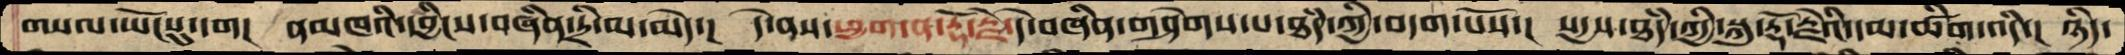གསལ་ཡོངསུ་དག།  ནམཁའི་དབྱིངས་བཞིན་དྲི་མ་མེད་།  དེ་ནས་ཕྱག་ན་རྡོ་རྗེ་དེ་བཞིན་གཤེགས་པ་ཐཾད་ཀྱི་བདག་པོས་།  སདྱས་ཐཾད་ཀྱི་སྐུ་རྡོ་རྗེའི་དམ་ཚིག་འདི་།  ཉིད་
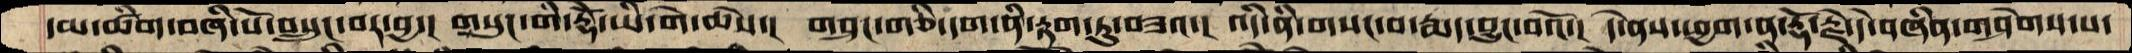དམ་ཚིག་བཞི་པོ་བསྲུང་བར་བྱ་།  གསུང་གི་རྡོེ་ཡི་གེ་ཆེས་།  གཤང་གཅི་དག་ནི་རྟག་ཏུ་བཟའ་།  འདི་ནི་གསང་བ་རྨད་བྱུང་བའོ་།  དེ་ནས་ཕྱག་ན་རྡོ་རྗེ་དེ་བཞིན་གཤེགས་པ་
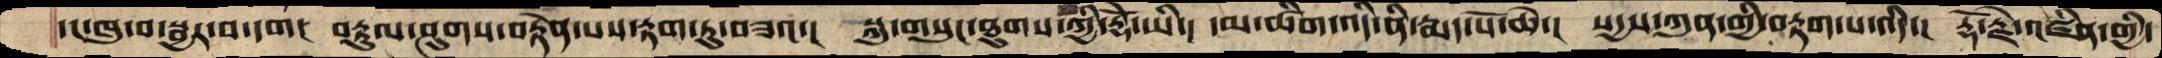དང་ཁུ་བ་སྦྱར་བ་དག།  བརྟུལ་ཤུགས་བརྟེན་པས་རྟག་ཏུ་བཟའ་།  སྐུ་གསུང་ཐུགས་ཀྱི་རྡོེ་ཡི་།  དམ་ཚིག་འདི་ནི་རྨད་པོ་ཆེ་།  སདྱས་ཀུན་གྱི་བརྟག་པ་འདི་།  རྡོ་རྗེ་འཛིན་གྱི་
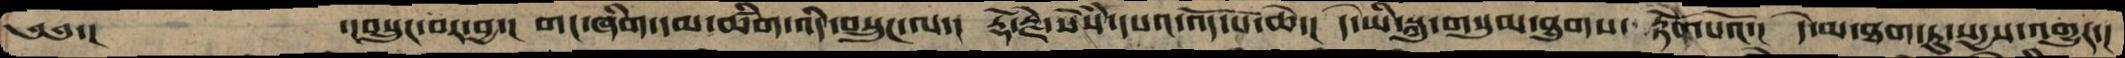༄༅་།     ་།བསྲུང་བར་བྱ་།  གང་ཞིག་དམ་ཚིག་འདི་བསྲུང་ལ་།  རྡོ་རྗེ་སེཾས་དཔའ་འོད་པོ་ཆེ་།  དེ་ཡི་སྐུ་གསུང་ཐུགས་   རྟེན་པའོ་།  དེ་མ་ཐག་ཏུ་སདྱས་འགྱུར་།
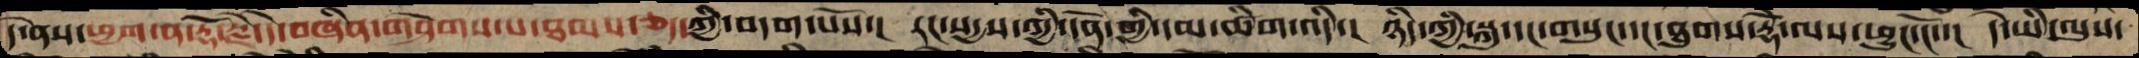དེ་ནས་ཕྱག་ན་རྡོ་རྗེ་དེ་བཞིན་གཤེགས་པ་ཐམས་ཅད་ཀྱི་བདག་པོས་།  རང་སདྱས་ཀྱི་དོན་གྱི་དམ་ཚིག་འདི་།  ཉིད་ཀྱི་སྐུ་དང་གསུང་དང་ཐུགས་རྡོེ་ལས་ཕྱུང་ངོ་་།   དེ་ཡི་ལུས་
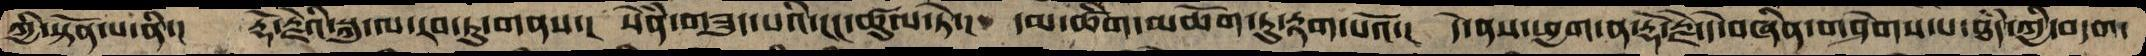ཀྱི་སྟོན་པ་ནི་།  རྡོ་རྗེའི་སྐུ་ལ་རབ་ཏུ་གནས་།   སེཾན་གཟུད་པའི་ངང་ཚུལ་ཏེ་།  དམ་ཚིག་མཆོག་ཏུ་རྟག་པའོ་།  དེ་ནས་ཕྱག་ན་རྡོ་རྗེ་དེ་བཞིན་གཤེགས་པ་ཐཾད་ཀྱི་བདག་
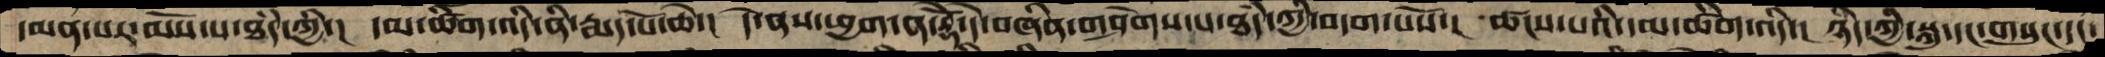དམན་པར་མོས་པ་ཐཾད་ཀྱི་།  དམ་ཚིག་འདི་ནི་རྨད་པོ་ཆེ་།  དེ་ནས་ཕྱག་ན་རྡོེ་དེ་བཞིན་གཤེགས་པ་ཐཾད་ཀྱི་བདག་པོས་།  ཚངས་པའི་དམ་ཚིག་འདི་།  ཉིད་ཀྱི་སྐུ་དང་གསུང་དང་
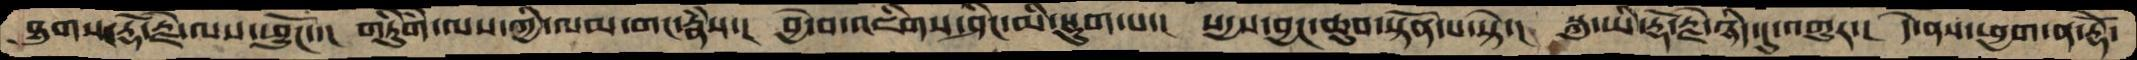ཐུགས་རྡོ་རྗེ་ལས་ཕྱུངོ་་།  གཏིུཾག་ལས་ཀྱི་ལམ་གང་རྣཾས་།  བྱེ་བ་འཇིགས་ཤིང་མི་སྡུག་པ་།  སདྱས་བྱང་ཆུབ་སྟོན་པ་སྟེ་།  སྐུ་ཡི་རྡོ་རྗེ་ཉིད་དུ་འགྱུར་།  དེ་ནས་ཕྱག་ན་རྡོེ་
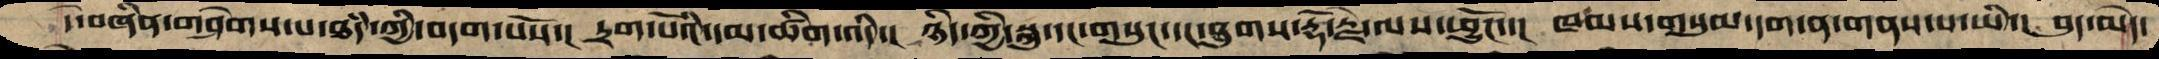དེ་བཞིན་གཤེགས་པ་ཐཾད་ཀྱི་བདག་པོས་།  དྲག་པོའི་དམ་ཚིག་འདི་།  ཉིད་ཀྱི་སྐུ་དང་གསུང་དང་ཐུགས་རྡོ་རྗེ་ལས་ཕྱུངོ་་།  ཁམས་གསུམ་དག་ན་གནས་པ་ཡི་།  བུད་མེད་
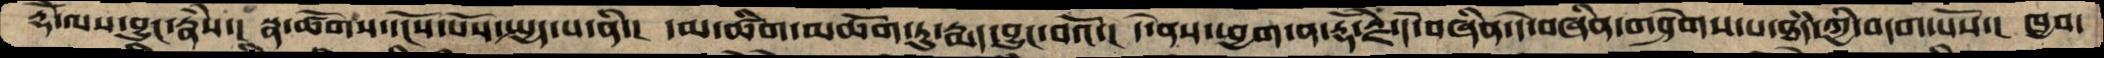རྡོེ་ལས་བྱུང་རྣཾས་།  སྣ་ཚོགས་དངོས་པོས་སྤྱད་པ་ནི་།  དམ་ཚིག་མཆོག་ཏུ་རྨད་བྱུང་བའོ་།  དེ་ནས་ཕྱག་ན་རྡོ་རྗེ་དེ་བཞིན་དེ་བཞིན་གཤེགས་པ་ཐཾད་ཀྱི་བདག་པོས་།  ཁྱབ་
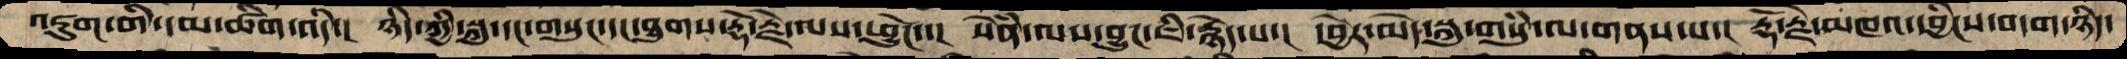འཇུག་གི་དམ་ཚིག་འདི་།  ཉིད་ཀྱི་སྐུ་དང་གསུང་དང་ཐུགས་རྡོ་རྗེ་ལས་ཕྱུངོ་་།  སེཾན་ལས་བྱུང་ཇི་རྙེད་པ་།  དབྱེར་མེད་སྐུ་གསུཾ་ལ་གནས་པ་།  རྡོ་རྗེ་མཁའ་དབྱིངས་བདག་ཉིད་
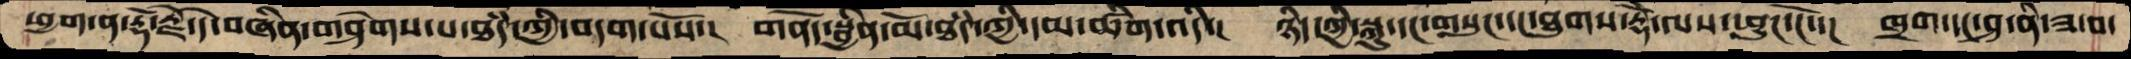ཕྱག་ན་རྡོ་རྗེ་དེ་བཞིན་གཤེགས་པ་ཐཾད་ཀྱི་བདག་པོས་།  གནོད་སྦྱིན་མོ་ཐཾད་ཀྱི་དམ་ཚིག་འདི་།  ཉིད་ཀྱི་སྐུ་དང་གསུང་དང་ཐུགས་རྡོེ་ལས་ཕྱུང་ངོ་་།  ཁྲག་དང་ཤ་ནི་ཟ་བ་
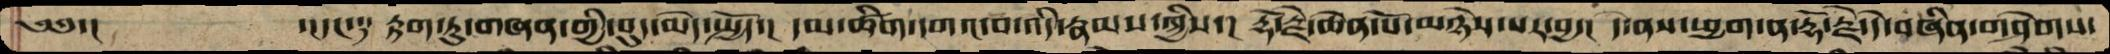༄༅་།         ་།དང་༑  རྟག་ཏུ་གཞན་གྱི་བུད་མེད་སྤྱོད་།  དམ་ཚིག་དགའ་བ་འདི་རྣམས་ཀྱིས་།  རྡོ་རྗེ་ཆེན་པོ་མཉེས་པར་བྱ་།  དེ་ནས་ཕྱག་ན་རྡོ་རྗེ་དེ་བཞིན་གཤེགས་
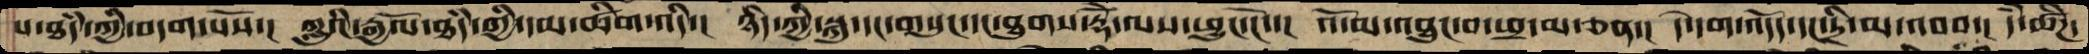པ་ཐཾད་ཀྱི་བདག་པོས་།  ཀླུའི་རྒྱལོ་ཐཾད་ཀྱི་དམ་ཚིག་འདི་།  ཉིད་ཀྱི་སྐུ་དང་གསུང་དང་ཐུགས་རྡོེ་ལས་ཕྱུང་ངོ་་།  འོ་མ་འབྱུང་བ་ཕྲ་མ་ཅན་།  དེ་དག་འདོད་དང་དྲི་མ་འབབ་།  དཾ་ཚིཌ་
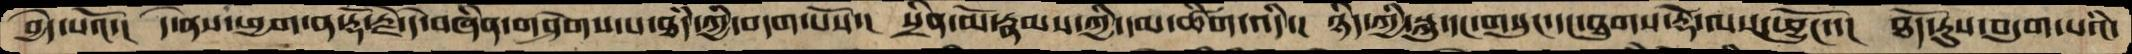བྱེད་པའོ་།  དེ་ནས་ཕྱག་ན་རྡོ་རྗེ་དེ་བཞིན་གཤེགས་པ་ཐཾད་ཀྱི་བདག་པོས་།  སྲིན་མོ་རྣམས་ཀྱི་དམ་ཚིག་འདི་།  ཉིད་ཀྱི་སྐུ་དང་གསུང་དང་ཐུགས་རྡོེ་ལས་ཕྱུངོ་་།  ཐོད་རུས་བདུག་པའི་
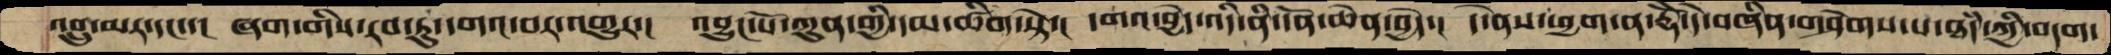འབྲུ་མར་དང་་།  ཞག་གིས་རབ་ཏུ་དགའ་བར་འགྱུར་།  འབྱུང་པོ་ཀུན་གྱི་དམ་ཚིག་སྟེ་།  དགའ་བྱེད་འདི་ནི་དོན་ཆེན་བྱེད་།  དེ་ནས་ཕྱག་ན་རྡོེ་དེ་བཞིན་གཤེགས་པ་ཐཾད་ཀྱི་བདག་
